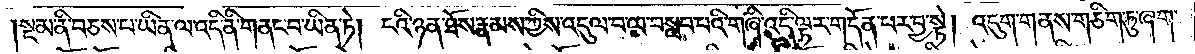སྔ་མ་ནི་བཅས་པ་ཡིན་ལ་འདི་ནི་གནང་བ་ཡིན་ཏེ། ངའི་ཉན་ཐོས་རྣམས་ཀྱིས་འདུལ་བ་ལ་བསླབ་པའི་གཞི་འདི་ལྟར་གདོན་པར་བྱ་སྟེ། འདུག་གནས་གཅིག་ཏུ་ཞག་
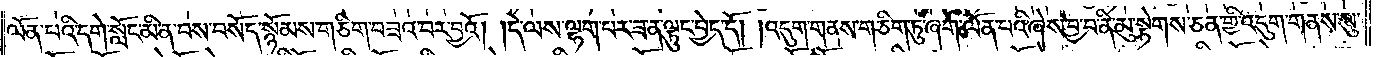ལོན་པའི་དགེ་སློང་མི་ན་བས་བསོད་སྙོམས་གཅིག་བཟའ་བར་བྱའོ། །དེ་ལས་ལྷག་པར་ཟ་ན་ལྟུང་བྱེད་དོ། །འདུག་གནས་གཅིག་ཏུ་ཞག་ལོན་པའི་ཞེས་བྱ་བ་ནི་མུ་སྟེགས་ཅན་གྱི་འདུག་གནས་སུ་
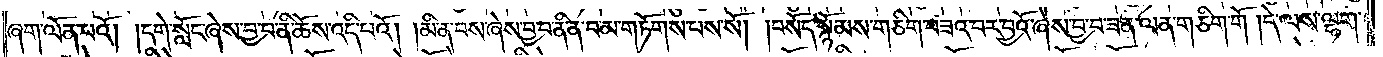ཞག་ལོན་པའོ། །དགེ་སློང་ཞེས་བྱ་བ་ནི་ཆོས་འདི་པའོ། །མི་ན་བས་ཞེས་བྱ་བ་ནི་ན་བ་མ་གཏོགས་པས་སོ། །བསོད་སྙོམས་གཅིག་བཟའ་བར་བྱའོ་ཞེས་བྱ་བ་ཟན་ལན་གཅིག་གོ །དེ་ལས་ལྷག་
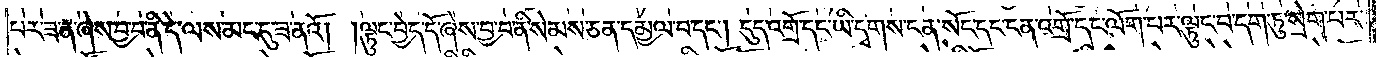པར་ཟ་ན་ཞེས་བྱ་བ་ནི་དེ་ལས་མང་དུ་ཟ་ནའོ། །ལྟུང་བྱེད་དོ་ཞེས་བྱ་བ་ནི་སེམས་ཅན་དམྱལ་བ་དང༌། དུད་འགྲོ་དང་ཡི་དྭགས་ངན་སོང་དང་ངན་འགྲོ་དང་ལོག་པར་ལྟུང་བ་དག་ཏུ་སྲེག་པར་
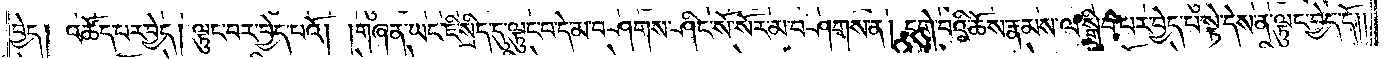བྱེད། འཚོད་པར་བྱེད། ལྟུང་བར་བྱེད་པའོ། །གཞན་ཡང་ཇི་སྲིད་དུ་ལྟུང་བ་དེ་མ་བཤགས་ཤིང་སོ་སོར་མ་བཤགས་ན། དགེ་བའི་ཆོས་རྣམས་ལ་སྒྲིབ་པར་བྱེད་པ་སྟེ་དེས་ན་ལྟུང་བྱེད་དོ༎
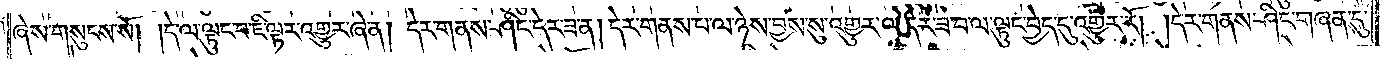ཞེས་གསུངས་སོ། །དེ་ལ་ལྟུང་བ་ཇི་ལྟར་འགྱུར་ཞེ་ན། དེར་གནས་ཤིང་དེར་ཟ་ན། དེར་གནས་པ་ལ་ཉེས་བྱས་སུ་འགྱུར་ལ་དེར་ཟ་བ་ལ་ལྟུང་བྱེད་དུ་འགྱུར་རོ། །དེར་གནས་ཤིང་གཞན་དུ་
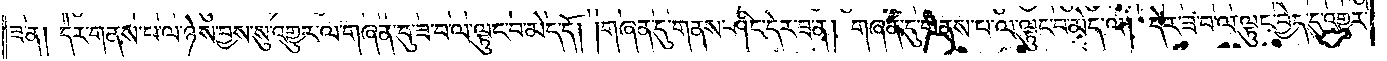ཟ་ན། དེར་གནས་པ་ལ་ཉེས་བྱས་སུ་འགྱུར་ལ་གཞན་དུ་ཟ་བ་ལ་ལྟུང་བ་མེད་དོ། །གཞན་དུ་གནས་ཤིང་དེར་ཟ་ན། གཞན་དུ་གནས་པ་ལ་ལྟུང་བ་མེད་ལ། དེར་ཟ་བ་ལ་ལྟུང་བྱེད་དུ་འགྱུར་
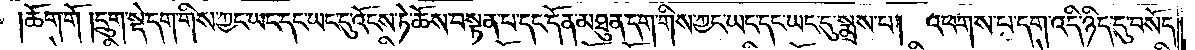ཆོག་གོ །དྲུག་སྡེ་དག་གིས་ཀྱང་ཡང་དང་ཡང་དུ་འོངས་ཏེ་ཆོས་བསྟན་པ་དང་དོན་མཐུན་དག་གིས་ཀྱང་ཡང་དང་ཡང་དུ་སྨྲས་པ།  འཕགས་པ་དག་འདི་ཉིད་དུ་བསོད་
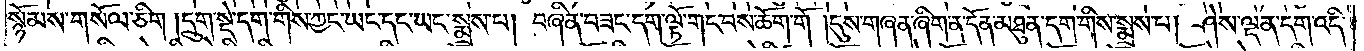སྙོམས་གསོལ་ཅིག །དྲུག་སྡེ་དག་གིས་ཀྱང་ཡང་དང་ཡང་སྨྲས་པ། བཞིན་བཟང་དག་ལྟོ་གང་བས་ཆོག་གོ །དུས་གཞན་ཞིག་ན་དོན་མཐུན་དག་གིས་སྨྲས་པ། ཤེས་ལྡན་དག་འདི་
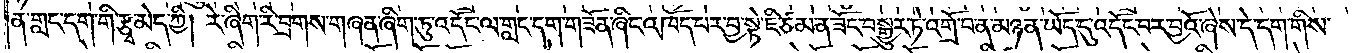ན་གླང་དག་གི་རྩྭ་མེད་ཀྱི། རེ་ཞིག་རི་བྲགས་གཞན་ཞིག་ཏུ་འདོང་ལ་གླང་དག་གཟོན་ཞིང་འཁོད་པར་བྱ་སྟེ་ཇི་ཙམ་ན་ཟོང་བསྒྱུར་ཏེ་འགྲོ་བ་ན་མཉན་ཡོད་དུ་འདོང་བར་བྱའོ་ཞེས་དེ་དག་གིས་
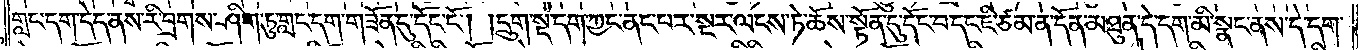གླང་དག་དེད་ནས་རི་བྲགས་ཤིག་ཏུ་གླང་དག་གཟོན་དུ་དོང་ངོ༌། །དྲུག་སྡེ་དག་ཀྱང་ནང་པར་སྔར་ལངས་ཏེ་ཆོས་སྟོན་དུ་དོང་བ་དང་ཇི་ཙམ་ན་དོན་མཐུན་དེ་དག་མི་སྣང་ནས་དེ་དག་
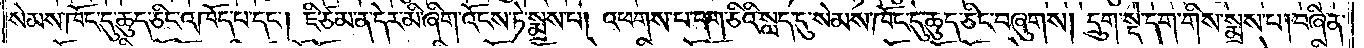སེམས་ཁོང་དུ་ཆུད་ཅིང་འཁོད་པ་དང༌། ཇི་ཙམ་ན་དེར་མི་ཞིག་འོངས་ཏེ་སྨྲས་པ། འཕགས་པ་དག་ཅིའི་སླད་དུ་སེམས་ཁོང་དུ་ཆུད་ཅིང་བཞུགས། དྲུག་སྡེ་དག་གིས་སྨྲས་པ།བཞིན་
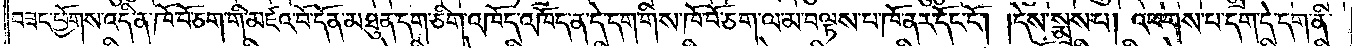བཟང་ཕྱོགས་འདི་ན་ཁོ་བོ་ཅག་གི་མཛའ་བོ་དོན་མཐུན་དག་ཅིག་འཁོད་འཁོད་ན་དེ་དག་གིས་ཁོ་བོ་ཅག་ལམ་བལྟས་པ་ཁོ་ནར་དོང་ངོ༌། །དེས་སྨྲས་པ། འཕགས་པ་དག་དེ་དག་ནི་
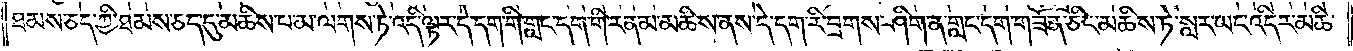ཐམས་ཅད་ཀྱི་ཐམས་ཅད་དུ་མཆིས་པ་མ་ལགས་ཏེ་འདི་ལྟར་དེ་དག་གི་གླང་དག་གི་རན་མ་མཆིས་ནས་དེ་དག་རི་བྲགས་ཤིག་ན་གླང་དག་གཟོན་ཅིང་མཆིས་ཏེ་སླར་ཡང་འདིར་མཆི་
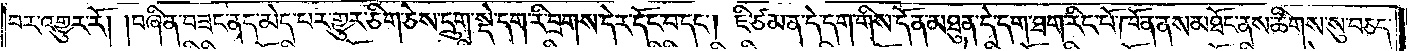བར་འགྱུར་རོ། །བཞིན་བཟང་ནད་མེད་པར་གྱུར་ཅིག་ཅེས་དྲུག་སྡེ་དག་རི་བྲགས་དེར་དོང་བ་དང༌། ཇི་ཙམ་ན་དེ་དག་གིས་དོན་མཐུན་དེ་དག་ཐག་རིང་པོ་ཁོ་ན་ནས་མཐོང་ནས་ཚིགས་སུ་བཅད་
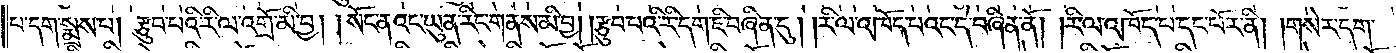པ་དག་སྨྲས་པ། རྩུབ་པའི་རི་ལ་འགྲོ་མི་བྱ། །སོང་ནའང་ཡུན་རིང་གནས་མི་བྱ། །རྩུབ་པའི་རི་དག་ཇི་བཞིན་དུ། །རི་ལ་འཁོད་པའང་དེ་བཞིན་ནོ། །རི་ལ་འཁོད་པ་དང་པོར་ནི། །གསེར་དག་
